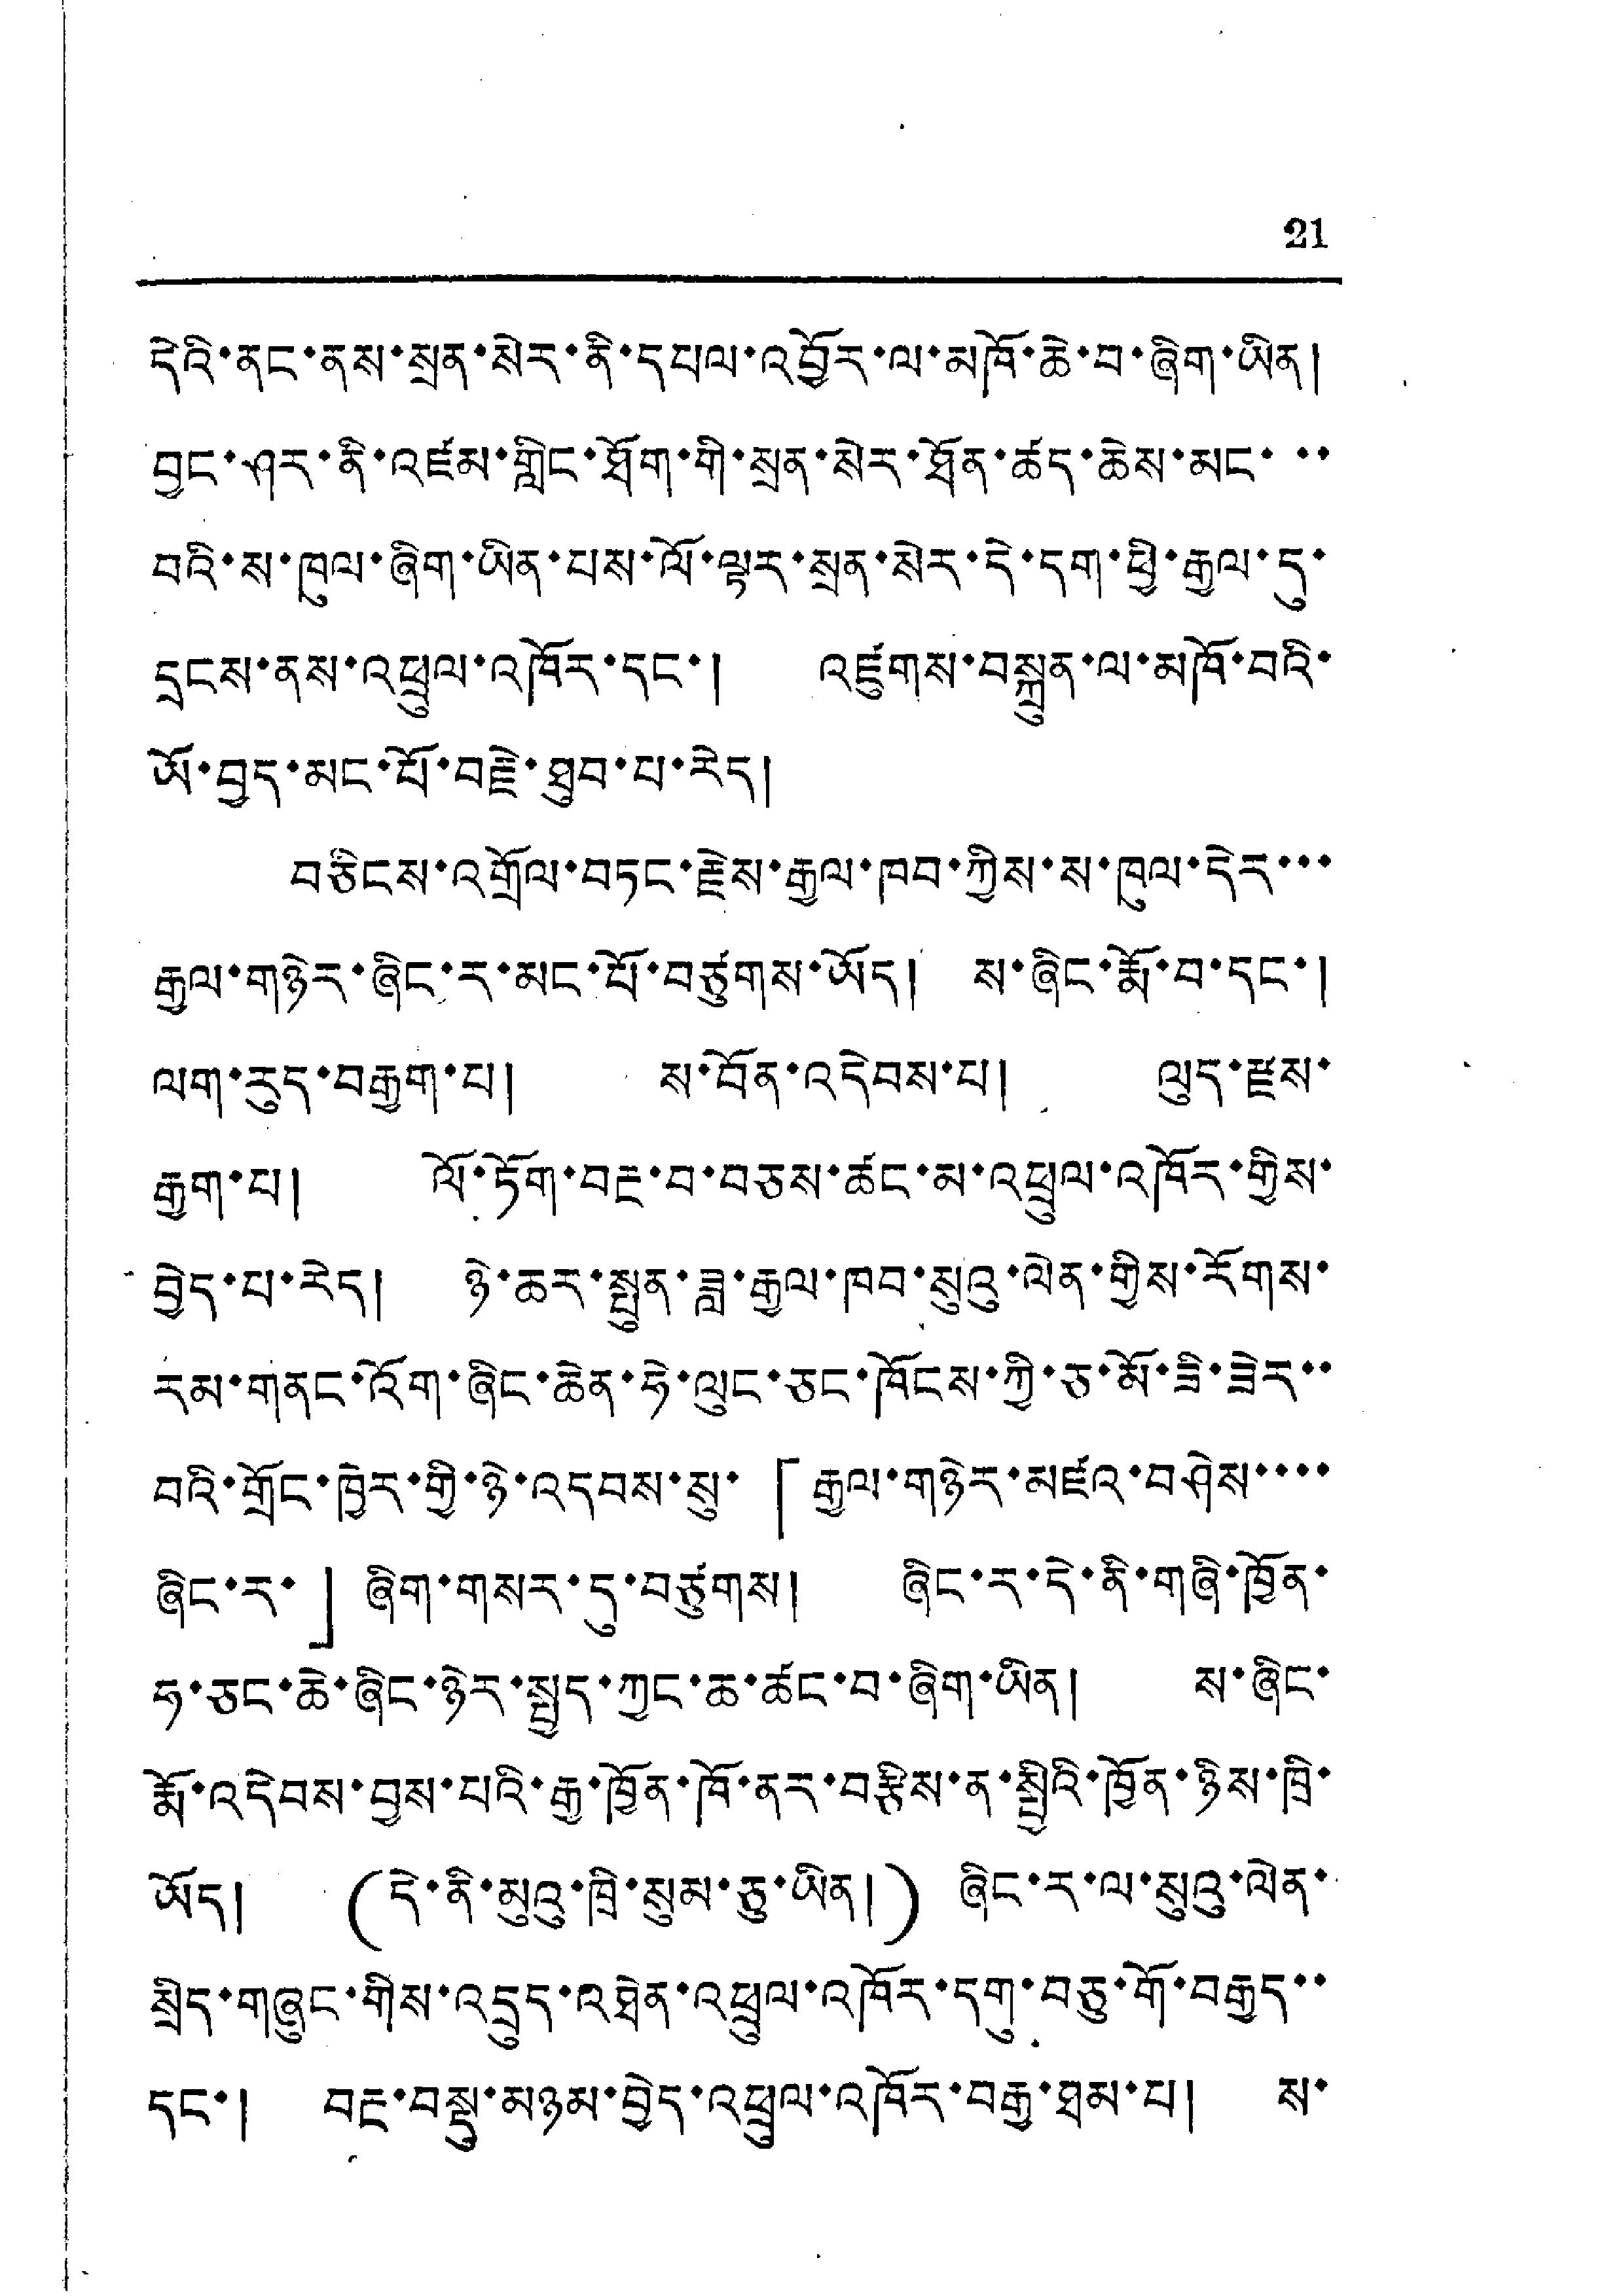21
དེའི་ནང་ནས་སྲན་སེར་ནི་དཔལ་འབྱོར་ལ་མཁོ་ཆེ་བ་ཞིག་ཡིན།
བྱང་ཤར་ནི་འཛམ་གླིང་ཐོག་གི་སྲན་སེར་ཐོན་ཚད་ཆེས་མང་་་
བའི་ས་ཁུལ་ཞིག་ཡིན་པས་ལོ་ལྟར་སྲན་སེར་དེ་དག་ཕྱི་རྒྱལ་དུ་
དྲངས་ནས་འཕྲུལ་འཁོར་དང་། འཛུགས་བསྐྲུན་ལ་མཁོ་བའི་
ཡོ་བྱད་མང་པོ་བརྗེ་ཐུབ་པ་རེད།
བཅིངས་འགྲོལ་གཏང་རྗེས་རྒྱལ་ཁབ་ཀྱིས་ས་ཁུལ་དེར་་་
རྒྱལ་གཉེར་ཞིང་ར་མང་པོ་བཙུགས་ཡོད། ས་ཞིང་རྨོ་བ་དང་།
ལག་རུད་བརྒྱག་པ། ས་བོན་འདེབས་པ། ལུད་རྫས་
རྒྱག་པ། ལོ་ཏོག་བརྔ་བ་བཅས་ཚང་མ་འཕྲུལ་འཁོར་གྱིས་
བྱེད་པ་རེད། ཉེ་ཆར་སྤུན་ཟླ་རྒྱལ་ཁབ་སུའུ་ལེན་གྱིས་རོགས་
རམ་གནང་འོག་ཞིང་ཆེན་ཧེ་ལུང་ཅང་ཁོངས་ཀྱི་ཅ་མོ་ཟི་ཟེར་་
བའི་གྲོང་ཁྱེར་གྱི་ཉེ་འདབས་སུ་「རྒྱལ་གཉེར་མཛའ་བཤེས་་་་
ཞིང་ར་」ཞིག་གསར་དུ་བཙུགས། ཞིང་ར་དེ་ནི་གཞི་ཁྱོན་
ཧ་ཅང་ཆེ་ཞིང་ཉེར་སྤྱད་ཀྱང་ཆ་ཚང་བ་ཞིག་ཡིན། ས་ཞིང་
རྨོ་འདེབས་བྱས་པའི་རྒྱ་ཁྱོན་ཁོ་ནར་བརྩིས་ན་སྤྱིའི་ཁྱོན་ཉིས་ཁྲི་
ཡོད། (དེ་ནི་མུའུ་ཁྲི་སུམ་ཅུ་ཡིན།) ཞིང་ར་ལ་སུའུ་ལེན་
སྲིད་གཞུང་གིས་འདྲུད་འཐེན་འཕྲུལ་འཁོར་དགུ་བཅུ་གོ་བརྒྱད་་
དང་། བརྔ་བསྡུ་མཉམ་བྱེད་འཕྲུལ་འཁོར་བརྒྱ་ཐམ་པ། ས་
